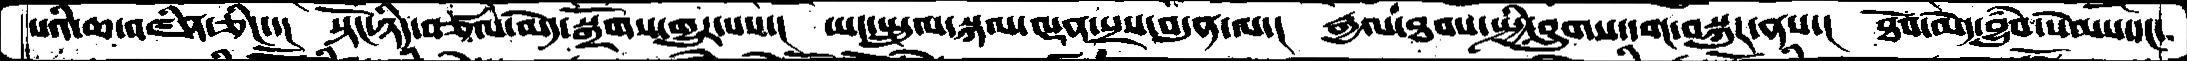པའི་ཆ་འཛིན་ཅིང་་།  སྟོང་ཉིད་བཅོས་མེད་སྒྲོགས་གྱུར་པས་།  ཡང་སྤྲུལ་སྐལ་ལྡན་སྲས་བདུན་ལ་།  རྒྱལ་ཐབས་སྤྱི་བླུགས་དབང་བསྐུར་ནས་།  ཐོབ་མེད་བྱུཾབ་སེམས་དང་
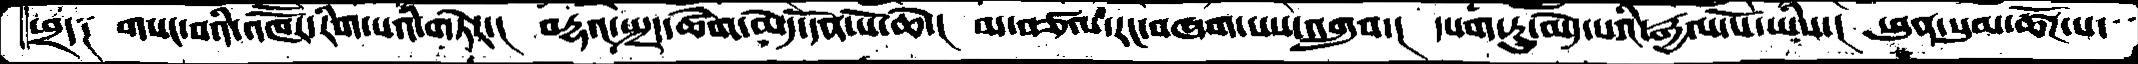ཕྲད༑   གསང་བའི་འཁཽར་རིག་པའི་གཏེར་།  བརྡའ་སྤྲད་ཚེག་མེད་དོན་པོ་ཆེ་།   མབཙལ་རང་བཞག་པས་འགྲུབ་།   དཔག་ཏུ་མེད་པའི་རྒྱལ་པོ་ཡིས་།  ཕུན་སུམ་ཚོཌ་པ་
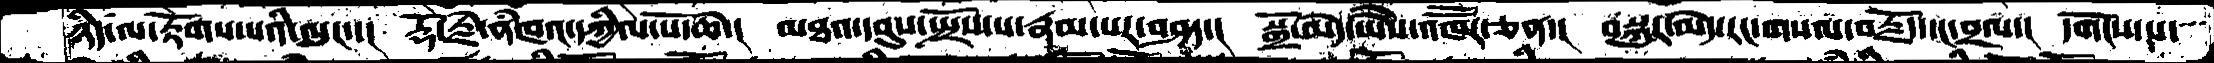ཉིད་ལ་རྟོགས་པའི་ལུང་་།  རྡོ་རྗེ་ནཾཁའ་དཀྱིལ་པོ་ཆེ་།  མཐའ་དབུས་སྤྲོས་པ་རྣམ་པར་བཤད་།   སྒྲོ་མེད་ཡེཻས་འཁོོཽར་ཅན་།  བསྐུར་མེད་རང་གསལ་བརྗོད་དང་བྲལ་།  དགོངས་པ་
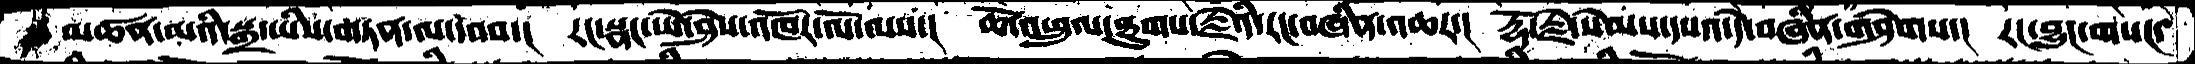མཚན་མའི་སྒྲ་ཡིས་གཏན་ལ་དབབ་།  རང་སྣང་ཡེ་ཤེས་འཁོར་ལོ་ལས་།  ཆོ་འཕྲུལ་ཐུགས་རྗེའི་རང་བཞིན་འཆར་།  རྡོ་རྗེ་སེམས་དཔའ་དེ་བཞིག་གཤེགས་།  རང་བྱུང་གསང་
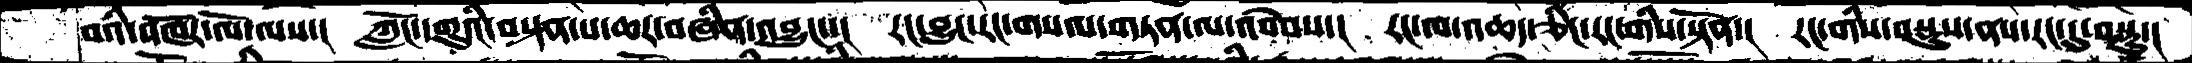བའི་འཁོར་ལོ་ལས་།  ཀློང་དགུའི་བསྟན་པ་ཆར་བཞིན་འབྱུང་་།  རང་བྱུང་རང་གསལ་གཏན་ལ་འབེབས་།  རང་ལ་འཆད་ཅིང་རང་གིས་སྟོན་།  རང་གིས་བསྡུས་ནས་རང་དུ་བསྡུ་།
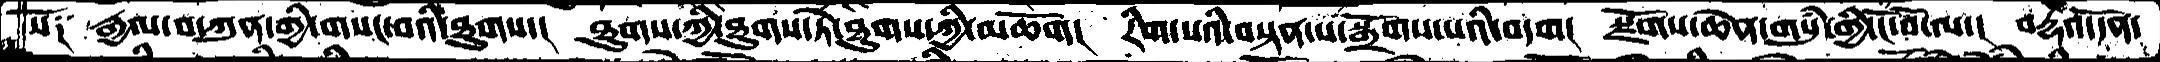སོ༑  རྒྱལ་བ་ཀུན་གྱི་གསང་བའི་ཐུགས་།  ཐུགས་ཀྱི་ཐུགས་ཏེ་ཐུགས་ཀྱི་མཆོག།  རིག་པའི་བསྟན་པ་སྒྲོགས་པའི་བདག།  སྫོགས་ཆེན་གསུཾ་གྱི་ངོ་བོ་ལ་།  བརྡའ་དོན་
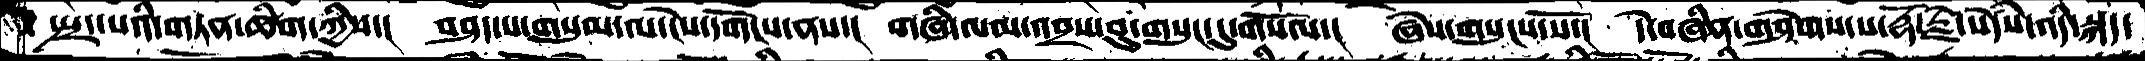སྤྲད་པའི་གཏན་ཚིག་ཀྱིས་།  བཤད་པ་གསུམ་ལ་ངེས་དགོངས་ནས་།  གཞི་ལམ་འབྲས་བུ་གསུང་དུ་གསོལ་།  ཞེས་གསུངས་སོ་།  དེ་བཞིན་གཤེགས་པ་རྡོ་རྗེ་སེདཾས་འདི་སྐད་
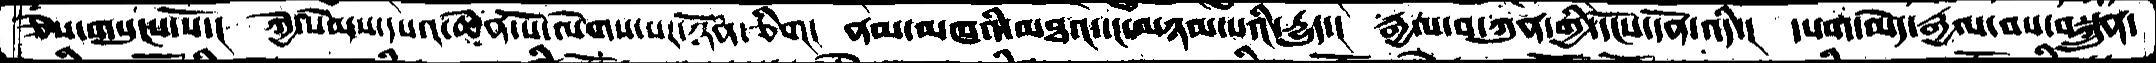ཅེས་གསུངས་སོ་།  ཀྱེ་སེམས་དཔའ་ཆེན་པོ་ལེགས་པར་ཉོན་ཅིག།  ནམ་མཁའི་མཐའ་དང་མཉམ་པའི་རྒྱུད་།  རྒྱལ་བ་ཀུན་གྱི་དངོས་དོན་འདི་།  དཔག་མེད་རྒྱལ་བས་བསྐྲུན་
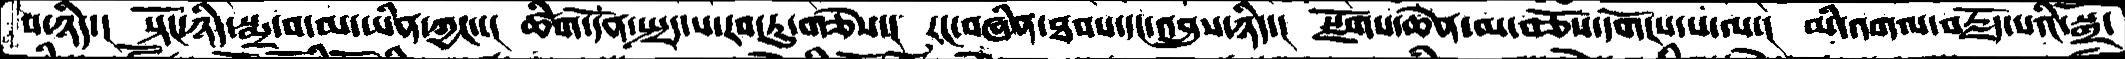པ་ཉིད་།  སྟོང་ཉིད་སྨྲ་བ་མ་ཡིན་ཀྱང་་།  ཚིག་དོན་སྤྲད་པ་རབ་ཏུ་གཅེས་།  རང་བཞིན་ཐབས་དང་འབྲུས་ཉིད་།  སྫོགས་ཆེན་མ་བཅོས་དགོངས་པ་ལ་།  མི་འགལ་བརྗོད་པའི་སྒྲ་
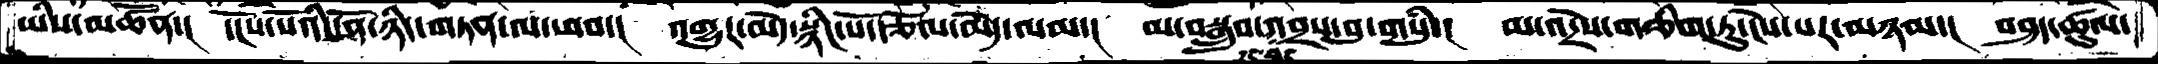ཡིས་མཚོན་། དངོས་པོའི་དོན་ཉིད་གཏན་ལ་ཕབ་། འགྱུར་མེད་སྙིང་པོ་རྩོལ་མེད་ལམ་། མ་བསྒྲུབ་རང་བྱུང་འབྲས་བུ་གསུཾ་། མ་འདྲེས་གཅིག་ཏུ་ངེས་པར་མཉམ་། བཤད་ཚུལ་
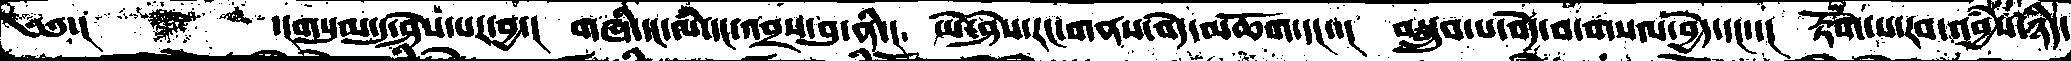༄༅་།      ་།གསུམ་དུ་ཤེས་པར་བྱ་།  གཞི་དང་ལཾ་དང་འབྲས་བུ་ནི་།  ཡེ་ཤེས་རང་གནས་བདེ་མཆོག་དང་་།  བསྒྲུབ་པ་བདེ་བ་གསལ་བྱེད་དང་་།  རྟོག་པ་རབ་འབྱཾས་ཉིད་
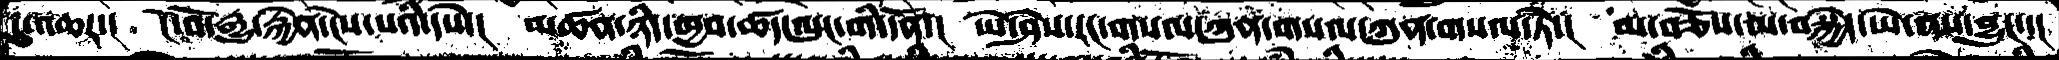དུ་འཆར་།  ངོ་བོ་རྒྱུ་རྐྱེན་ངེས་པའི་དཔེ་།  མཚན་ཉིད་ཁྱབ་ཚད་ལུང་གི་དོན་།  ཡེ་ཤེས་རང་གསལ་ཀུན་གསལ་ཀུན་གསལ་ཏེ་།  མ་བཅོས་མ་བསྐྱེད་ཡེ་ནས་བྱུང་་།
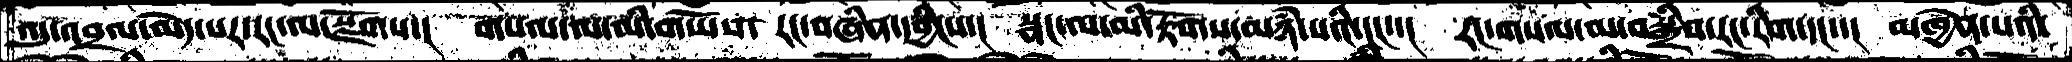འདུ་འབྲལ་མེད་པར་རང་ལ་སྫོགས་།  གསལ་ལ་མི་གཡོས་ རང་བཞིན་དབྱིངས་།  སྣང་ལ་མི་རྟོགས་མཉཾ་པའི་ངང་་།  རང་གསལ་མ་བསྒྲིབ་རང་རིག་དང་་།  མཁྱེན་པའི་
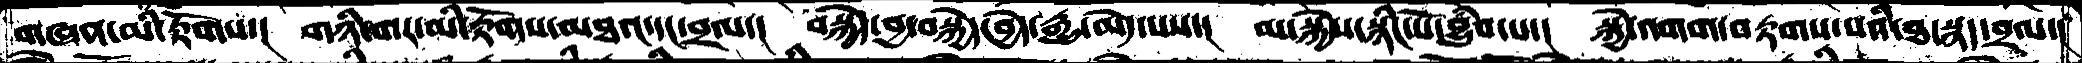གཞན་མི་རྟོགས་།  གཉི་གར་མི་རྟོགས་མཐའ་དང་བྲལ་།  བསྐྱེད་བྱ་བསྐྱེད་བྱེད་རྒྱུ་མེད་པས་།  མ་སྐྱེས་སྙིང་པོ་བྱུཾབ་པ་།  སྐྱེ་འགག་བརྟགས་པའི་ཐ་སྙད་བྲལ་།
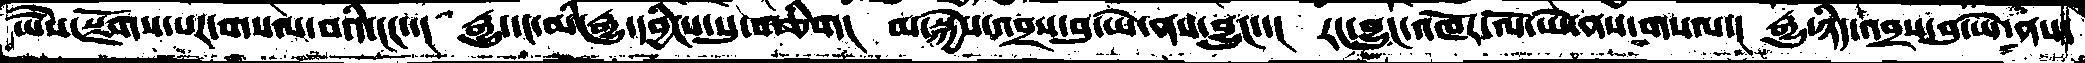ཡཻས་སྫོགས་པར་གསལ་བའི་ངང་་།  རྒྱུ་དང་མི་རྒྱུ་དབྱིངས་སུ་གཅིག།  མ་སྐྱེས་འབྲས་བུ་ཡེ་ནས་བྱུང་་།  རང་བྱུང་འཁོར་ལོ་ཡེ་ནས་གསལ་།  རྒྱུ་ཉིད་འབྲས་བུ་ཡེ་ནས་
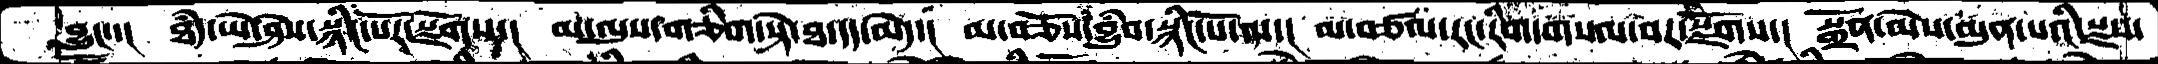བྱུང་་།  ཐཾད་ཡེ་ཤེས་སྙིང་པོར་སྫོགས་།  མ་ལུས་གཅིག་སྟེ་ཐ་དད་མེད་།  མ་བཅོས་བྱུཾབ་སྙིང་པོ་ལ་།  མ་བཙལ་རང་རིག་གསལ་བར་སྫོགས་།   སྒྲོན་མེས་མུན་པའི་སྫས་
